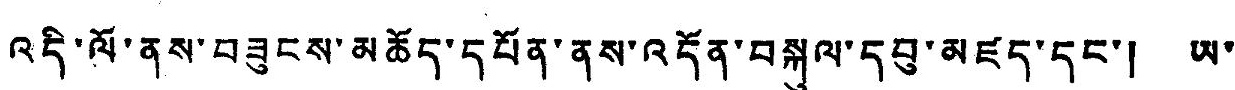འདི་ལོ་ནས་བཟུངས་མཆོད་དཔོན་ནས་འདོན་བསྐུལ་དབུ་མཛད་དང་། ཡ་
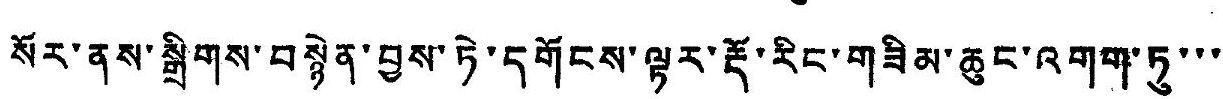སོར་ནས་སྒྲིགས་བསྙེན་བྱས་ཏེ་དགོངས་ལྟར་རྡོ་རིང་གཟིམ་ཆུང་འགག་ཏུ་་་
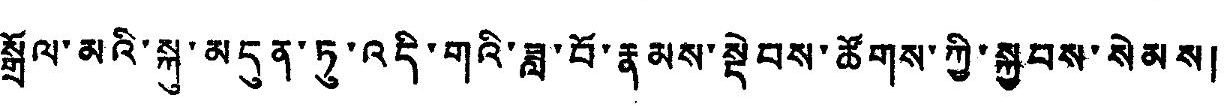སྒྲོལ་མའི་སྐུ་མདུན་ཏུ་འདི་གའི་ཟླ་བོ་རྣམས་སྡེབས་ཚོགས་ཀྱི་སྐྱབས་སེམས།
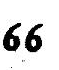66
